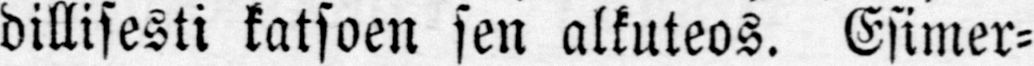dillisesti katsoen sen alkuteos. Esimer-
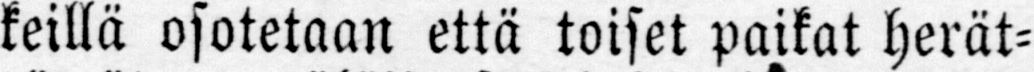keillä osotetaan että toiset paikat herät-
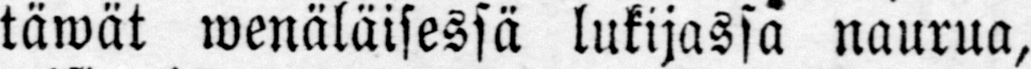tämät wenäläisessä lukijassa naurua,
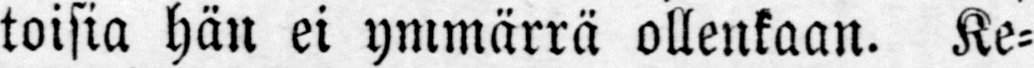toisia hän ei ymmärrä ollenkaan. Ke-
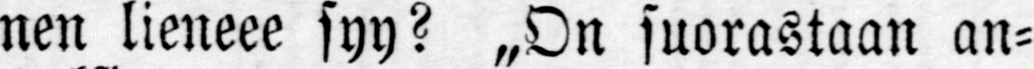nen lieneee syy? „On suorastaan an-
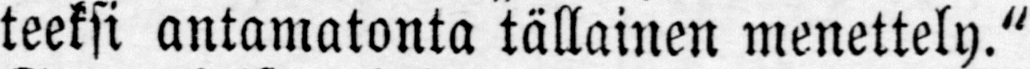teeksi antamatonta tällainen menettely."
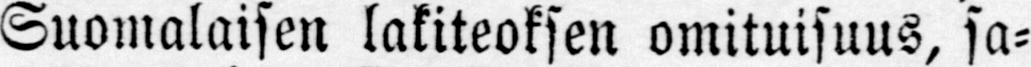Suomalaisen lakiteoksen omituisuus, sa-
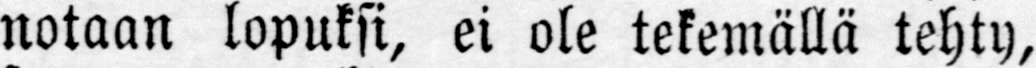notaan lopuksi, ei ole tekemällä tehty,
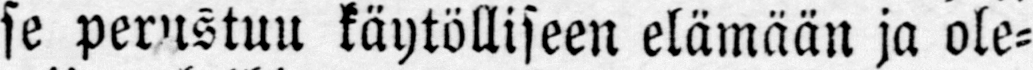se perustuu käytölliseen elämään ja ole-
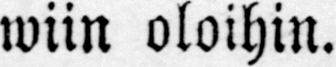wiin oloihin.
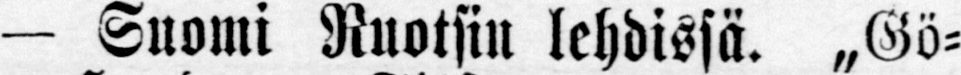— Suomi Ruotsin lehdissä. „Gö-
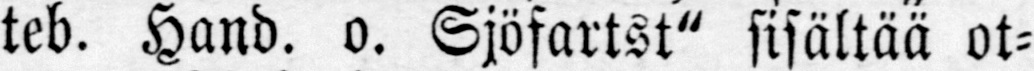teb. Hand. o. Sjöfartst" sisältää ot-
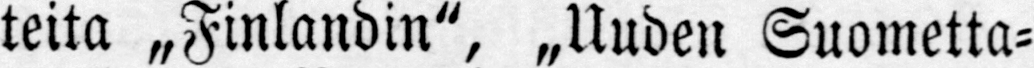teita „Finlandin" , Uuden Suometta-
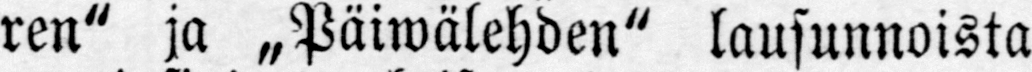ren" ja „Päiwälehden" lausunnoista
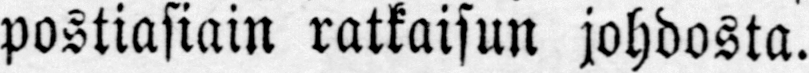postiasiain ratkaisun johdosta.
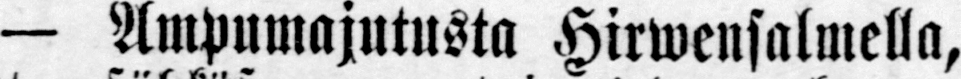— Ampumajutusta Hirwensalmella,
